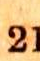21
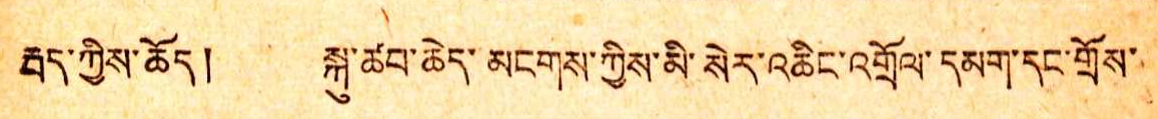རྦད་ཀྱིས་ཆོད ། སྐུ་ཚབ་ཆེད་མངགས་ཀྱིས་མི་སེར་འཆིང་འགྲོལ་དམག་དང་གྲོས་
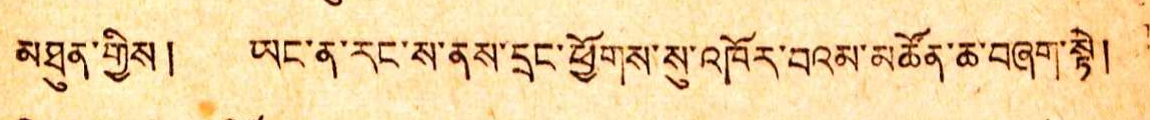མཐུན་གྱིས ། ཡང་ན་རང་ས་ནས་དྲང་ཕྱོགས་སུ་འཁོར་བའམ་མཚོན་ཆ་བཞག་སྟེ །
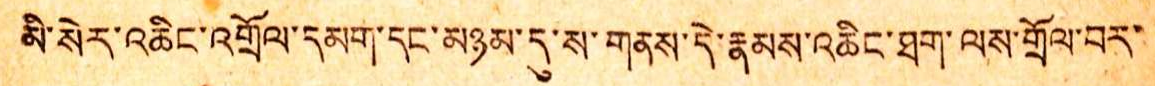མི་སེར་འཆིང་འགྲོལ་དམག་དང་མཉམ་དུ་ས་གནས་དེ་རྣམས་འཆིང་ཐག་ལས་གྲོལ་བར་
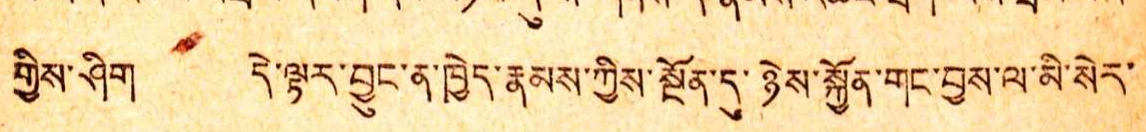གྱིས་ཤིག དེ་ལྟར་བྱུང་ན་ཁྱེད་རྣམས་ཀྱིས་སྔོན་དུ་ཉེས་སྐྱོན་གང་བྱས་ལ་མི་སེར་
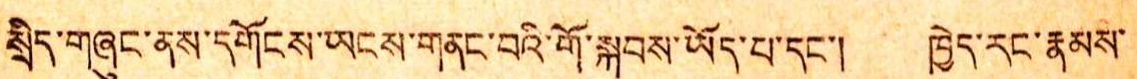སྲིད་གཞུང་ནས་དགོངས་ཡངས་གནང་བའི་གོ་སྐབས་ཡོད་པ་དང་། ཁྱེད་རང་རྣམས་
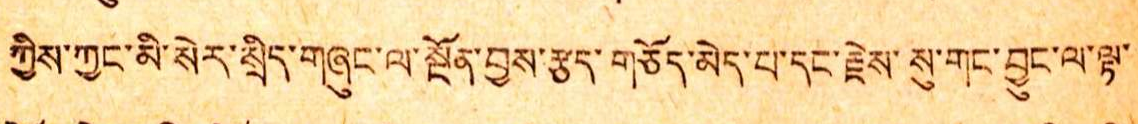ཀྱིས་ཀྱང་མི་སེར་སྲིད་གཞུང་ལ་སྔོན་བྱས་རྩད་གཅོད་མེད་པ་དང་རྗེས་སུ་གང་བྱུང་ལ་ལྟ་
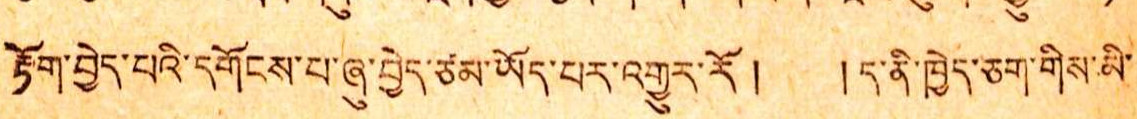རྟོག་བྱེད་པའི་དགོངས་པ་ཞུ་བྱེད་ཙམ་ཡོད་པར་འགྱུར་རོ ། ། ད་ནི་ཁྱེད་ཅག་གིས་མི་
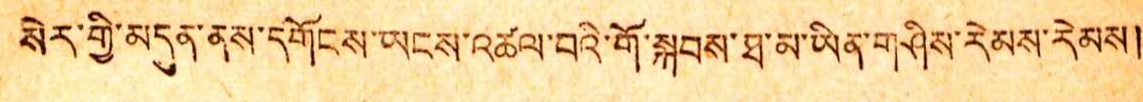སེར་གྱི་མདུན་ནས་དགོངས་ཡངས་འཚལ་བའི་གོ་སྐབས་ཐ་མ་ཡིན་གཤིས་རེམས་རེམས །
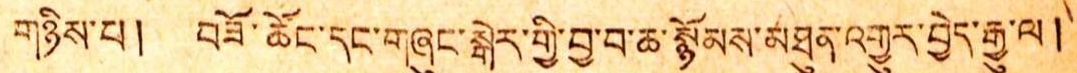གཉིས་པ། བཟོ་ཚོང་དང་གཞུང་སྒེར་གྱི་བྱ་བ་ཆ་སྙོམས་མཐུན་འགྱུར་བྱེད་རྒྱུ་ལ །
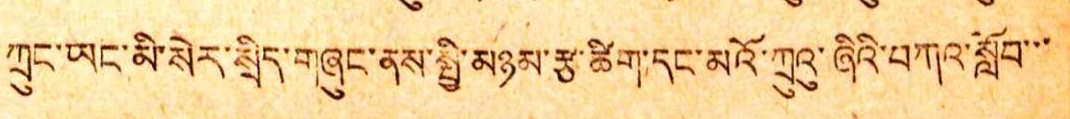ཀྲུང་ཡང་མི་སེར་སྲིད་གཞུང་ནས་སྤྱི་མཉམ་རྩ་ཚིག་དང་མའོ་ཀྲུའུ་ཞིའི་བཀའ་སློབ་་་
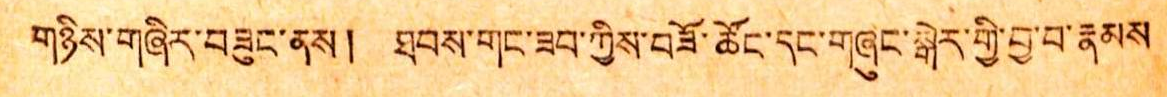གཉིས་གཞིར་བཟུང་ནས། ཐབས་གང་ཟབ་ཀྱིས་བཟོ་ཚོང་དང་གཞུང་སྒེར་གྱི་བྱ་བ་རྣམས
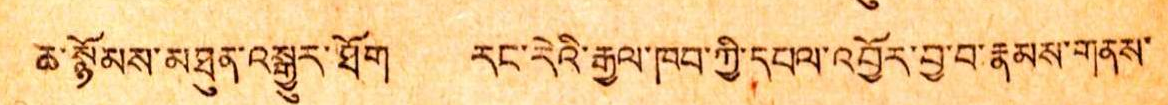ཆ་སྙོམས་མཐུན་འསྒྱུར་ཐོག རང་རེའི་རྒྱལ་ཁབ་ཀྱི་དཔལ་འབྱོར་བྱ་བ་རྣམས་གནས་
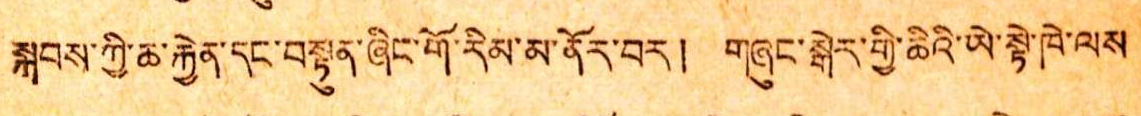སྐབས་ཀྱི་ཆ་རྐྱེན་དང་བསྟུན་ཞིང་གོ་རིམ་མ་ནོར་བར། གཞུང་སྒེར་གྱི་ཆིའི་ཡེ་སྟེ་ཁེ་ལས
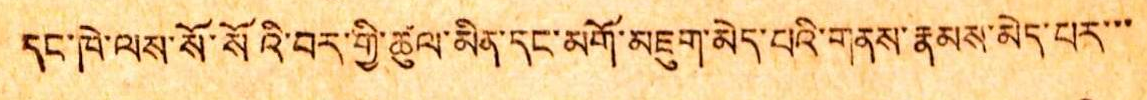དང་ཁེ་ལས་སོ་སོའི་བར་གྱི་ཚུལ་མིན་དང་མགོ་མཇུག་མེད་པའི་གནས་རྣམས་མེད་པར་་་
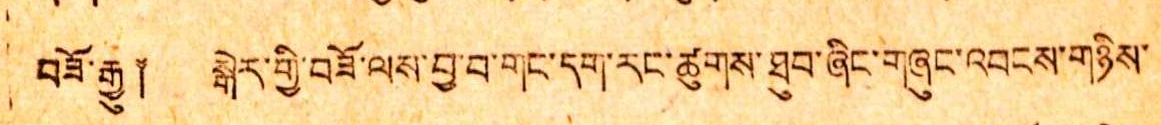བཟོ་རྒྱུ ༐ སྒེར་གྱི་བཟོ་ལས་བྱ་བ་གང་དག་རང་ཚུགས་ཐུབ་ཞིང་གཞུང་འབངས་གཉིས་
